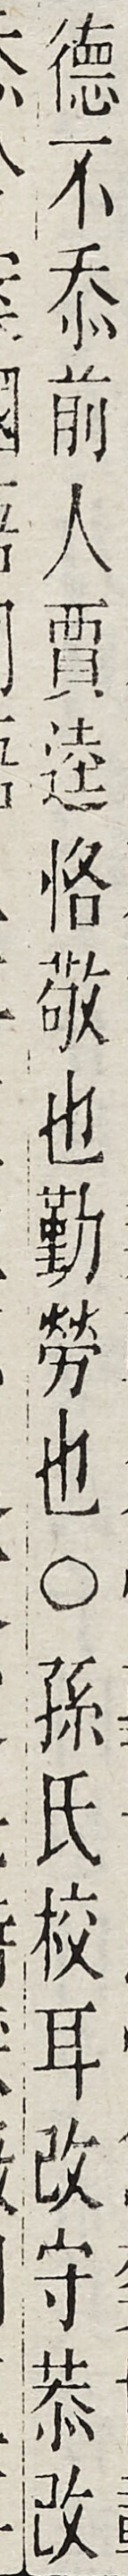德不忝前人賈逵恪敬也勤勞也○孫氏校耳改守恭改
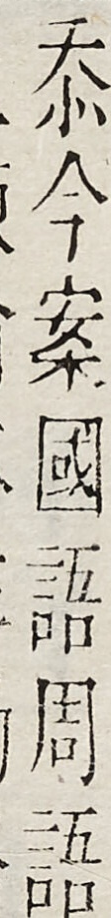忝今案國語周語
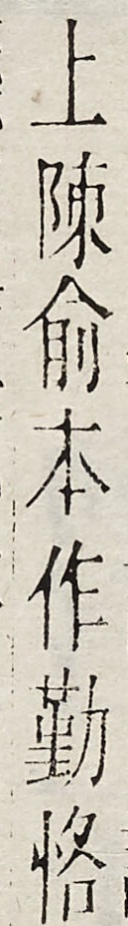上陳俞本作勤恪
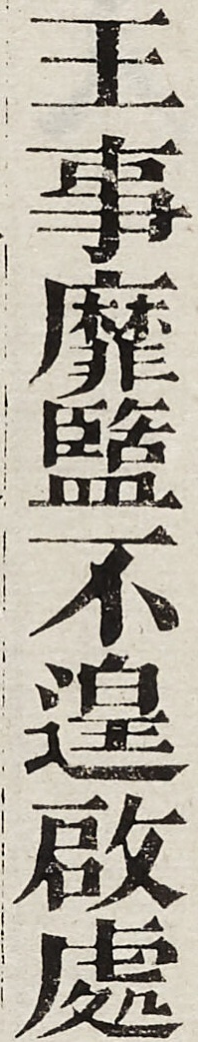王事靡監不遑啟處
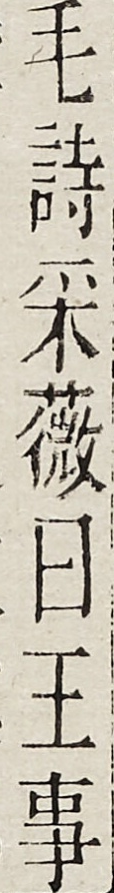毛詩採藢日王事
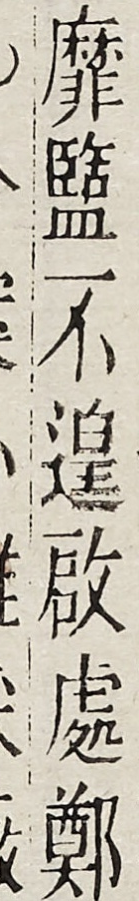靡鹽不遑啟退鄭
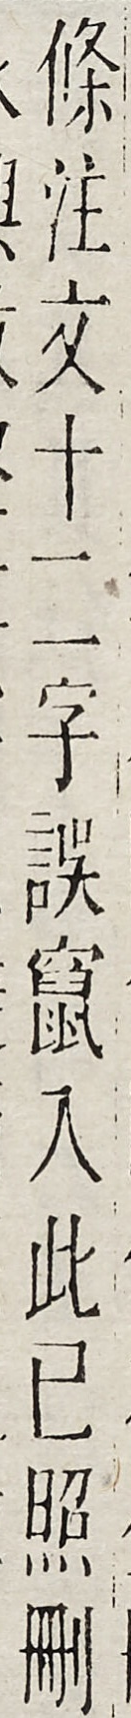條注文十二字誤竄入此已照刪
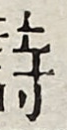詩
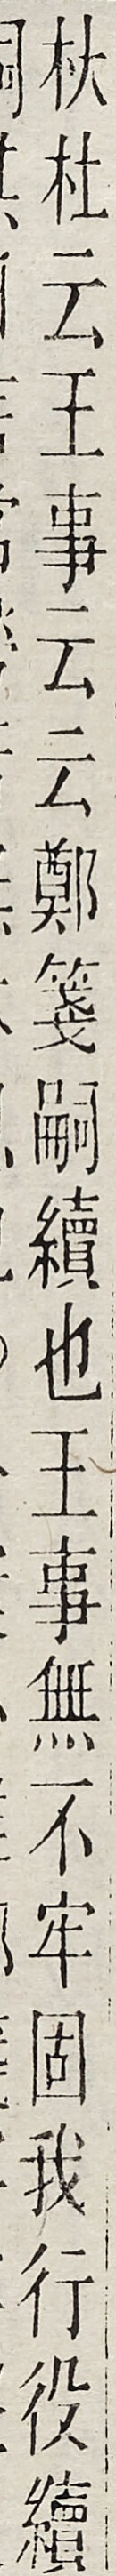秋杜云王事云云鄭箋嗣續也王事無不牢固我行役續
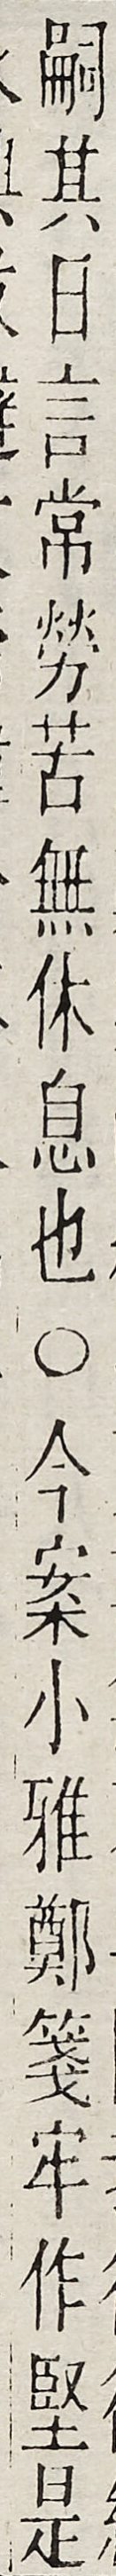嗣其日言常勞苦無休息也○今案小雅鄭箋牢作堅是
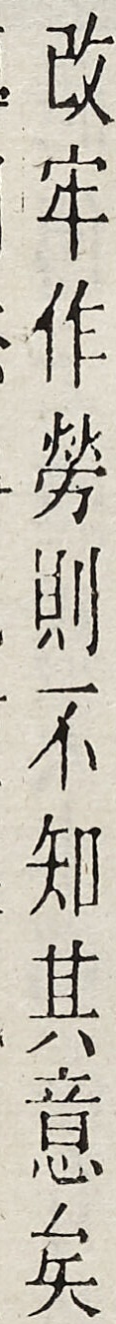改牢作勞則不知其意矣
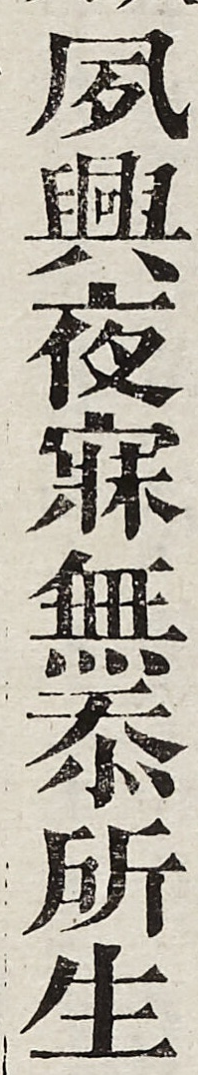夙興夜寐無忝所生
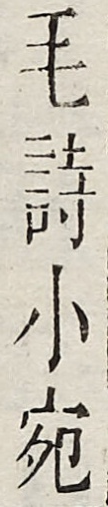毛詩小苑
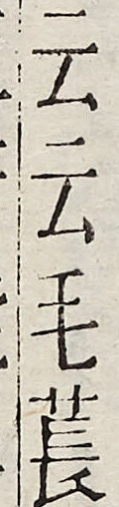云云毛萇
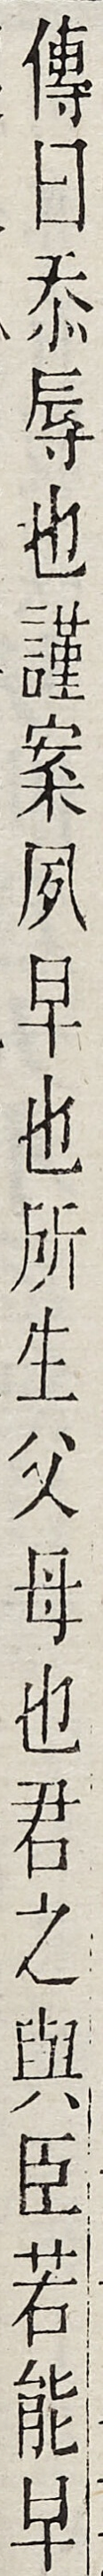傳曰忝辱也謹案夙早也所生父母也君之與臣若能早
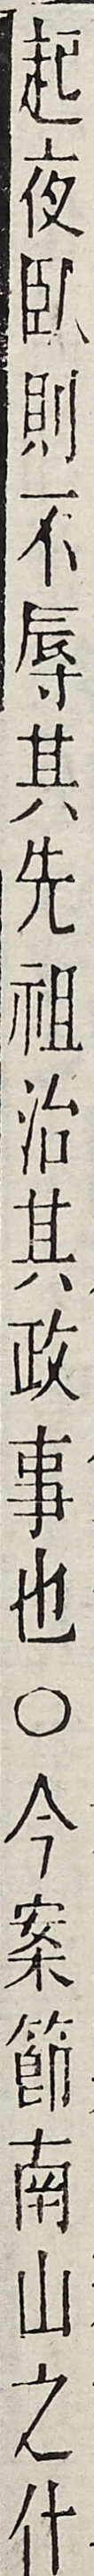起夜臥則不辱其先祖治其政事也○今案節南山之作
